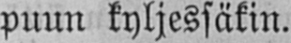puun kyljessäkin.
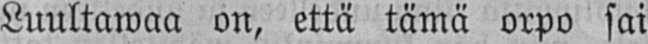Luultawaa on, että tämä orpo sai
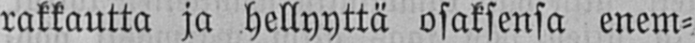rakkautta ja hellyyttä osaksensa enem-
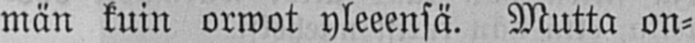män kuin orwot yleeensä. Mutta on-
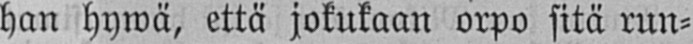han hywä, että jokukaan orpo sitä run-
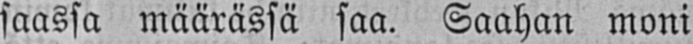saassa määrässä saa. Saahan moni
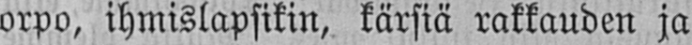orpo, ihmislapsikin, kärsiä rakkauden ja
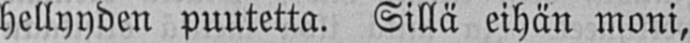hellyyden puutetta. Sillä eihän moni,
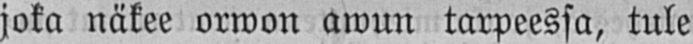joka näkee orwon awun tarpeessa, tule
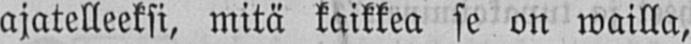ajatelleeksi, mitä kaikkea se on wailla,
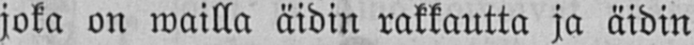joka on wailla äidin rakkautta ja äidin
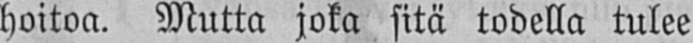hoitoa. Mutta joka sitä todella tulee
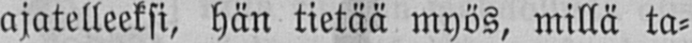ajatelleeksi, hän tietää myös, millä ta-
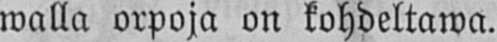walla orpoja on kohdeltawa.
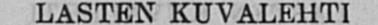LASTEN KUVALEHTI
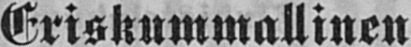Eriskummallinen
